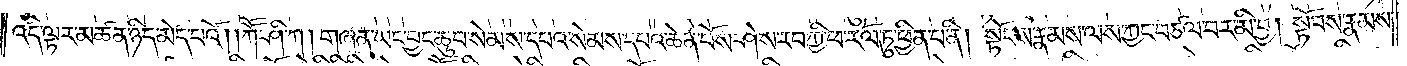འདི་ལྟར་མཚན་ཉིད་མེད་པའོ། །ཀཽ་ཤི་ཀ། གཞན་ཡང་བྱང་ཆུབ་སེམས་དཔའ་སེམས་དཔའ་ཆེན་པོས་ཤེས་རབ་ཀྱི་ཕ་རོལ་ཏུ་ཕྱིན་པ་ནི། སྟོབས་རྣམས་ལས་ཀྱང་བཙལ་བར་མི་བྱ། སྟོབས་རྣམས་
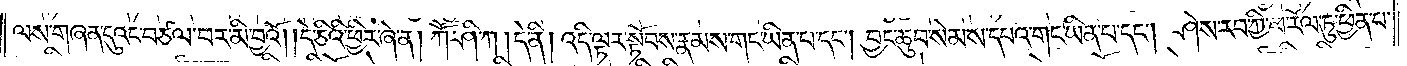ལས་གཞན་དུའང་བཙལ་བར་མི་བྱའོ། །དེ་ཅིའི་ཕྱིར་ཞེ་ན། ཀཽ་ཤི་ཀ །དེ་ནི། འདི་ལྟར་སྟོབས་རྣམས་གང་ཡིན་པ་དང༌། བྱང་ཆུབ་སེམས་དཔའ་གང་ཡིན་པ་དང༌། ཤེས་རབ་ཀྱི་ཕ་རོལ་ཏུ་ཕྱིན་པ་
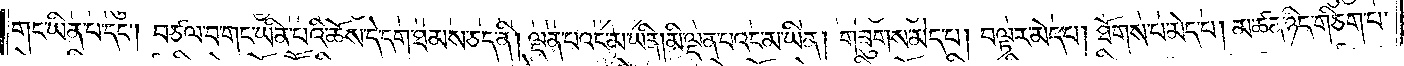གང་ཡིན་པ་དང༌། བཙལ་བ་གང་ཡིན་པའི་ཆོས་དེ་དག་ཐམས་ཅད་ནི། ལྡན་པའང་མ་ཡིན། མི་ལྡན་པའང་མ་ཡིན། གཟུགས་མེད་པ། བལྟར་མེད་པ། ཐོགས་པ་མེད་པ། མཚན་ཉིད་གཅིག་པ་
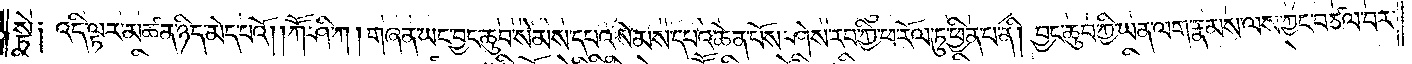སྟེ། འདི་ལྟར་མཚན་ཉིད་མེད་པའོ། །ཀཽ་ཤི་ཀ། གཞན་ཡང་བྱང་ཆུབ་སེམས་དཔའ་སེམས་དཔའ་ཆེན་པོས་ཤེས་རབ་ཀྱི་ཕ་རོལ་ཏུ་ཕྱིན་པ་ནི། བྱང་ཆུབ་ཀྱི་ཡན་ལག་རྣམས་ལས་ཀྱང་བཙལ་བར་
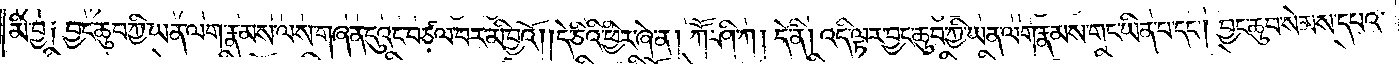མི་བྱ། བྱང་ཆུབ་ཀྱི་ཡན་ལག་རྣམས་ལས་གཞན་དུའང་བཙལ་བར་མི་བྱའོ། །དེ་ཅིའི་ཕྱིར་ཞེ་ན། ཀཽ་ཤི་ཀ། དེ་ནི། འདི་ལྟར་བྱང་ཆུབ་ཀྱི་ཡན་ལག་རྣམས་གང་ཡིན་པ་དང༌། བྱང་ཆུབ་སེམས་དཔའ་
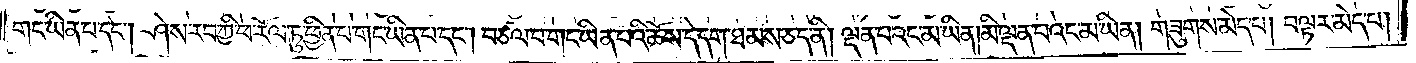གང་ཡིན་པ་དང༌། ཤེས་རབ་ཀྱི་ཕ་རོལ་ཏུ་ཕྱིན་པ་གང་ཡིན་པ་དང༌། བཙལ་བ་གང་ཡིན་པའི་ཆོས་དེ་དག་ཐམས་ཅད་ནི། ལྡན་པའང་མ་ཡིན། མི་ལྡན་པའང་མ་ཡིན། གཟུགས་མེད་པ། བལྟར་མེད་པ།
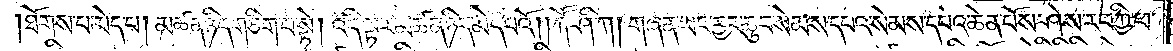ཐོགས་པ་མེད་པ། མཚན་ཉིད་གཅིག་པ་སྟེ། འདི་ལྟར་མཚན་ཉིད་མེད་པའོ། །ཀཽ་ཤི་ཀ། གཞན་ཡང་བྱང་ཆུབ་སེམས་དཔའ་སེམས་དཔའ་ཆེན་པོས་ཤེས་རབ་ཀྱི་ཕ་
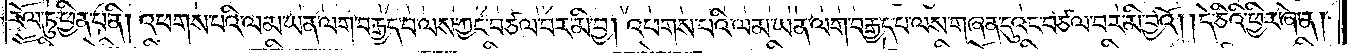རོལ་ཏུ་ཕྱིན་པ་ནི། འཕགས་པའི་ལམ་ཡན་ལག་བརྒྱད་པ་ལས་ཀྱང་བཙལ་བར་མི་བྱ། འཕགས་པའི་ལམ་ཡན་ལག་བརྒྱད་པ་ལས་གཞན་དུའང་བཙལ་བར་མི་བྱའོ། །དེ་ཅིའི་ཕྱིར་ཞེ་ན།
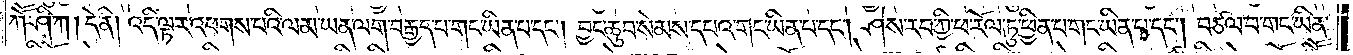ཀཽ་ཤི་ཀ། དེ་ནི། འདི་ལྟར་འཕགས་པའི་ལམ་ཡན་ལག་བརྒྱད་པ་གང་ཡིན་པ་དང༌། བྱང་ཆུབ་སེམས་དཔའ་གང་ཡིན་པ་དང༌། ཤེས་རབ་ཀྱི་ཕ་རོལ་ཏུ་ཕྱིན་པ་གང་ཡིན་པ་དང༌། བཙལ་བ་གང་ཡིན་
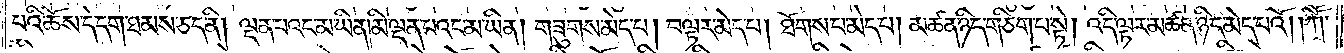པའི་ཆོས་དེ་དག་ཐམས་ཅད་ནི། ལྡན་པའང་མ་ཡིན་མི་ལྡན་པའང་མ་ཡིན། གཟུགས་མེད་པ། བལྟར་མེད་པ། ཐོགས་པ་མེད་པ། མཚན་ཉིད་གཅིག་པ་སྟེ། འདི་ལྟར་མཚན་ཉིད་མེད་པའོ། །ཀཽ་
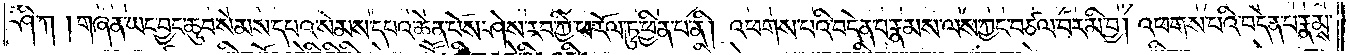ཤི་ཀ །གཞན་ཡང་བྱང་ཆུབ་སེམས་དཔའ་སེམས་དཔའ་ཆེན་པོས་ཤེས་རབ་ཀྱི་ཕ་རོལ་ཏུ་ཕྱིན་པ་ནི། འཕགས་པའི་བདེན་པ་རྣམས་ལས་ཀྱང་བཙལ་བར་མི་བྱ། འཕགས་པའི་བདེན་པ་རྣམས་
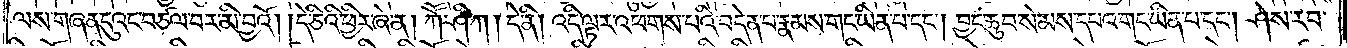ལས་གཞན་དུའང་བཙལ་བར་མི་བྱའོ། །དེ་ཅིའི་ཕྱིར་ཞེ་ན། ཀཽ་ཤི་ཀ། དེ་ནི། འདི་ལྟར་འཕགས་པའི་བདེན་པ་རྣམས་གང་ཡིན་པ་དང༌། བྱང་ཆུབ་སེམས་དཔའ་གང་ཡིན་པ་དང༌། ཤེས་རབ་
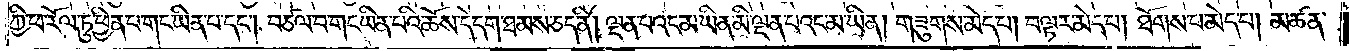ཀྱི་ཕ་རོལ་ཏུ་ཕྱིན་པ་གང་ཡིན་པ་དང༌། བཙལ་བ་གང་ཡིན་པའི་ཆོས་དེ་དག་ཐམས་ཅད་ནི། ལྡན་པའང་མ་ཡིན་མི་ལྡན་པའང་མ་ཡིན། གཟུགས་མེད་པ། བལྟར་མེད་པ། ཐོགས་པ་མེད་པ། མཚན་
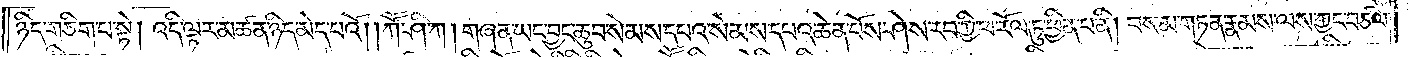ཉིད་གཅིག་པ་སྟེ། འདི་ལྟར་མཚན་ཉིད་མེད་པའོ། །ཀཽ་ཤི་ཀ། གཞན་ཡང་བྱང་ཆུབ་སེམས་དཔའ་སེམས་དཔའ་ཆེན་པོས་ཤེས་རབ་ཀྱི་ཕ་རོལ་ཏུ་ཕྱིན་པ་ནི། བསམ་གཏན་རྣམས་ལས་ཀྱང་བཙལ་
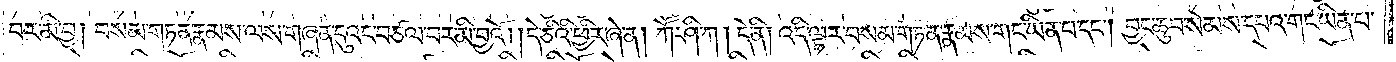བར་མི་བྱ། བསམ་གཏན་རྣམས་ལས་གཞན་དུའང་བཙལ་བར་མི་བྱའོ། ། དེ་ཅིའི་ཕྱིར་ཞེ་ན། ཀཽ་ཤི་ཀ། དེ་ནི། འདི་ལྟར་བསམ་གཏན་རྣམས་གང་ཡིན་པ་དང༌། བྱང་ཆུབ་སེམས་དཔའ་གང་ཡིན་པ་
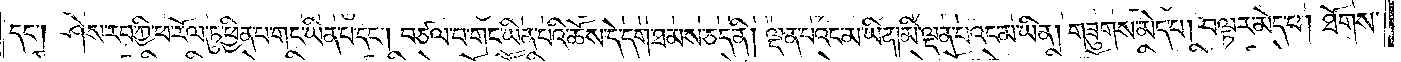དང༌། ཤེས་རབ་ཀྱི་ཕ་རོལ་ཏུ་ཕྱིན་པ་གང་ཡིན་པ་དང༌། བཙལ་བ་གང་ཡིན་པའི་ཆོས་དེ་དག་ཐམས་ཅད་ནི། ལྡན་པའང་མ་ཡིན། མི་ལྡན་བའང་མ་ཡིན། གཟུགས་མེད་པ། བལྟར་མེད་པ། ཐོགས་
